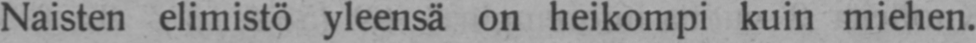Naisten elimistö yleensä on heikompi kuin miehen,
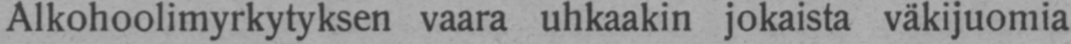Alkohoolimyrkytyksen vaara uhkaakin jokaista väkijuomia
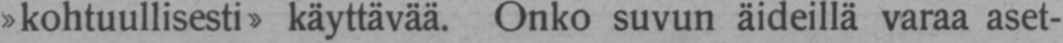»kohtuullisesti» käyttävää. Onko suvun äideillä varaa aset-
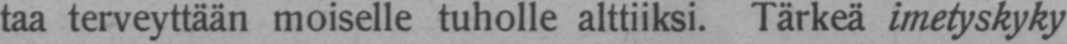taa terveyttään moiselle tuholle alttiiksi. Tärkeä imetyskyky
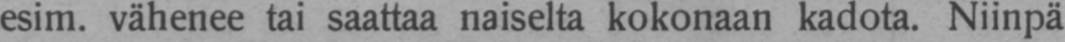esim. vähenee tai saattaa naiselta kokonaan kadota. Niinpä
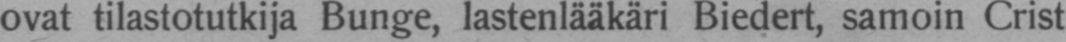ovat tilastotutkija Bunge, lastenlääkäri Biedert, samoin Crist
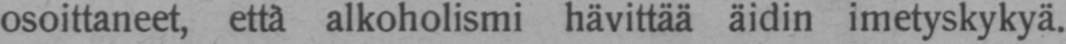osoittaneet, että alkoholismi hävittää äidin imetyskykyä.
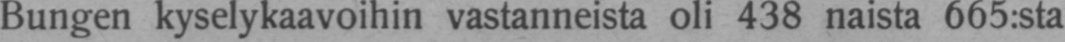Bungen kyselykaavoihin vastanneista oli 438 naista 665:sta
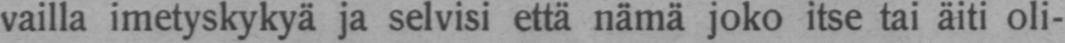vailla imetyskykyä ja selvisi että nämä joko itse tai äiti oli-
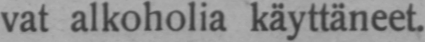vat alkoholia käyttäneet.
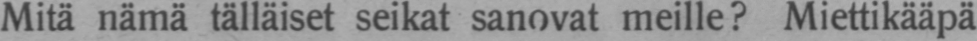Mitä nämä tälläiset seikat sanovat meille? Miettikääpä
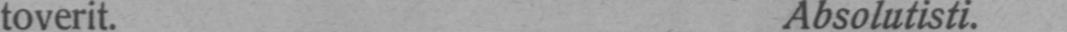toverit. Absolutisti.
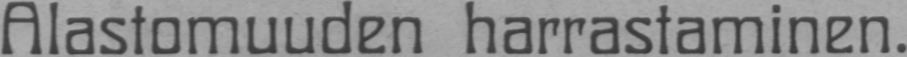Alastomuuden harrastaminen.
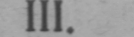III.
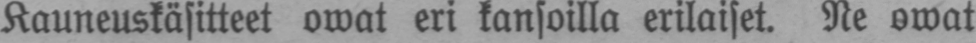Kauneuskäsitteet owat eri kansoilla erilaiset. Ne owat
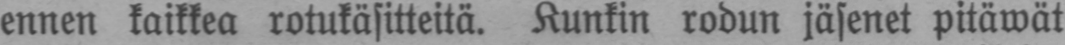ennen kaikkea rotukäsitteitä. Kunkin rodun jäsenet pitäwät
